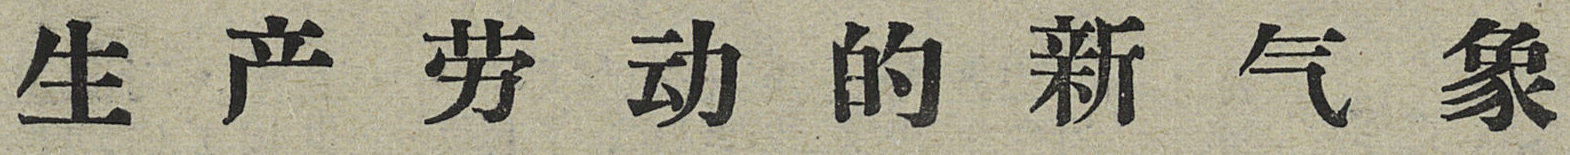生 产 劳 动 的 新 气 象
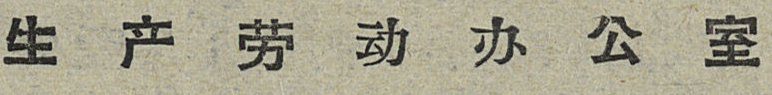生产劳动办公室
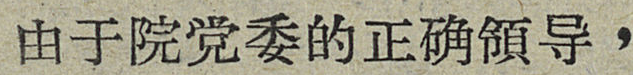由于院党委的正确領导，
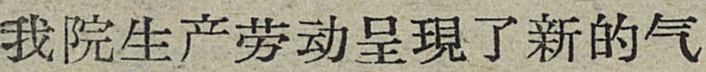我院生产劳动呈現了新的气
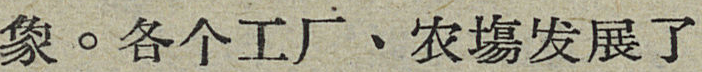象。各个工厂、农塲发展了
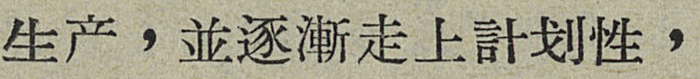生产，並逐漸走上計划性，
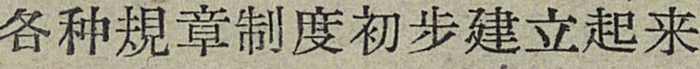各种規章制度初步建立起来
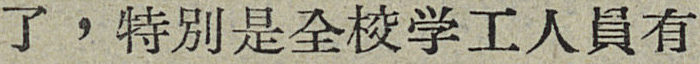了，特别是全校学工人員有
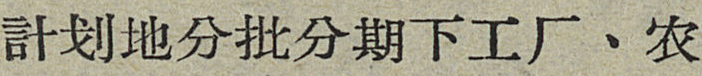計划地分批分期下工厂、农
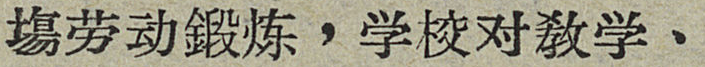塲劳动鍛炼，学校对敎学、
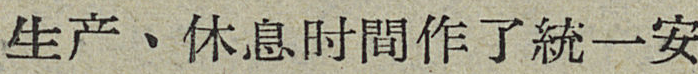生产、休息时間作了統一安
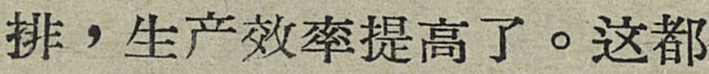排，生产效率提高了。这都
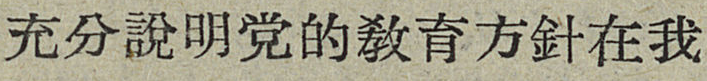充分說明党的敎育方針在我
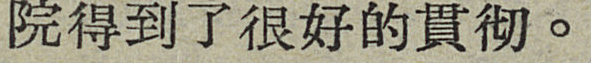院得到了很好的貫彻。
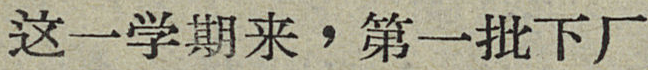这一学期来，第一批下厂
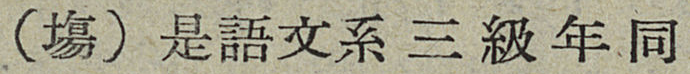（塲）是語文系三級年同
